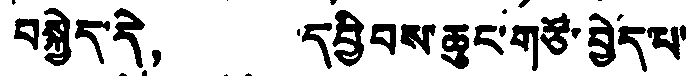བསྐྱེད་དེ， དབྱིབས་ཆུང་གཙོ་བྱེད་པ་
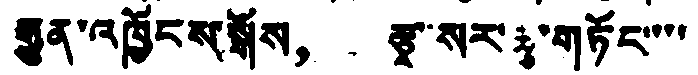རྒྱུན་འཁྱོངས་སྒོས， རྩྭ་སར་རྩ་གཏོང་་་་
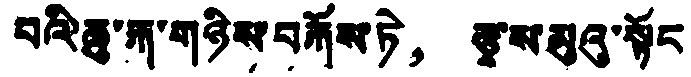པའི་ཆུ་རྐ་གཉིས་བརྐོས ཏེ， རྩྭ་ས་མུའུ་སྟོང
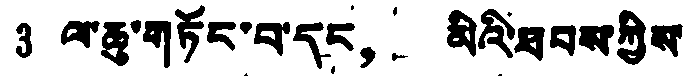3 ལ་ཆུ་གཏོང་བ་དང， མིའི་ཐབས་ཀྱིས
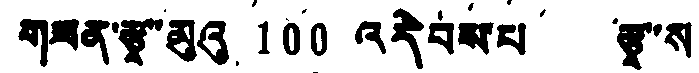གཟན་རྩྭ་མུའུ 100 འདེབས་པ རྩྭ་ས་
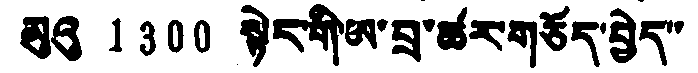མུའུ 1300 སྟེང་གི་ཡ་བྲ་ཚར་གཅོད་བྱེད་་
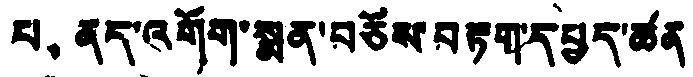པ、 ནད་འགོག་སྨན་བཅོས་བརྟག་དཔྱད་ཚན
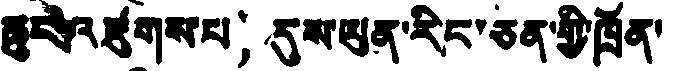ཆུས་འཛུགས་པ，དུས་ཡུན་རིང་ཅན་གྱི་ཁྲོན་
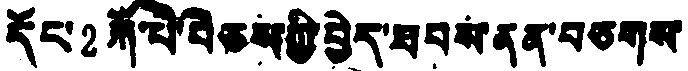དོང་2ཀོ་པོ་བཅས་ཀྱི་བྱེད་ཐབས་ནན་བཅགས་
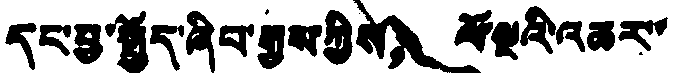དང་བྱ་སྤྱོད་ཞིབ་རྒྱས་ཀྱིས， ལོ་ལྔའི་འཆར་་
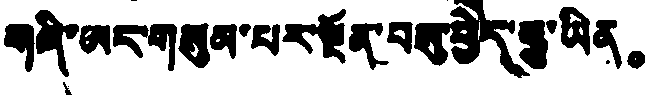གཞི་ཡང་གསུམ་པར་སྔོན་བསུ་བྱེད་རྒྱུ་ཡིན。
